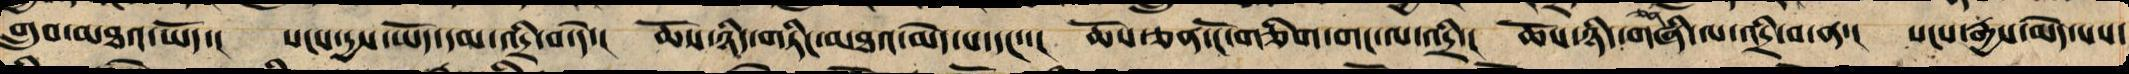གྲུབ་མཐའ་ཡོད་། སངས་དྱས་ཡོད་དམ་འདྲི་བ་་དེ། ཆོས་ཉིད་གཏིང་མཐའ་མེད་པ་དང་་། ཆོས་ཅན་ངོ་གཅིག་གང་ལ་འདྲི་། ཆོས་ཉིད་གཞི་ལ་འདྲི་བ་ན་། སངས་རྒྱས་མེད་པས་
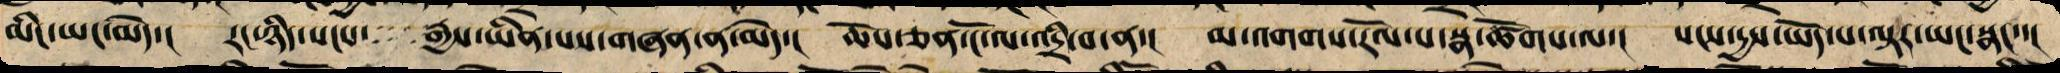མིང་ཡང་མེད་། རང་ཉིད་སངས་རྒྱས་ཡིན་པས་གཞན་ན་མེད་། ཆོས་ཅན་ངོ་ལ་འདྲི་བ་ན་། མ་འགགས་རོལ་པ་སྣ་ཚོགས་ལ་། སངས་དྱས་ཡོད་པ་ལྟར་ཡང་སྣང་་།
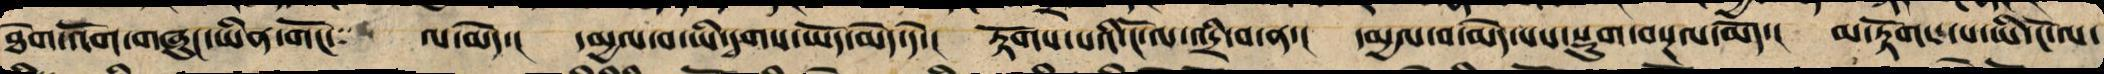ཐེག་འོག་གཞུང་ཡིན་གོང་ལ་མེད་། དམྱལ་བ་ཡི་དྭགས་ཡོད་མེད་དེ་། རྟོགས་པའི་ངོ་ལ་འདྲི་བ་ན་། དམྱལ་བ་མེད་པས་སྡུག་བསྔལ་མེད་། མ་རྟོགས་པ་ཡི་ངོ་ལ་
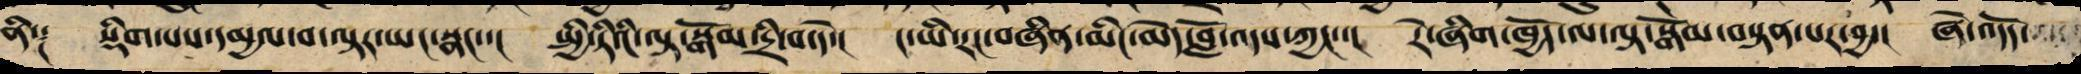ནི༑ སྡིག་པས་དམྱལ་བ་ལྟར་ཡང་སྣང་་། སྤྱི་ཏིའི་ལྟ་སྒོམ་དྲི་བ་དེ་། ང་ཡི་རང་བཞིན་མིང་མེད་བློ་འདས་ཀྱང་་། རེ་ཞིག་ཁྱོད་ལ་ལྟ་སྒོམ་བསྟན་པར་བྱ་། ཞེ་འདོད་
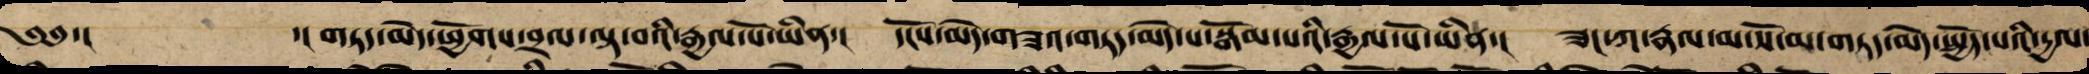༄༅་། ་།གཏད་མེད་ཕྱོགས་བྲལ་ལྟ་བའི་རྒྱལ་པོ་ཡིན་། དངོས་མེད་གཟའ་གཏད་མེད་པ་སྒོམ་པའི་རྒྱལ་པོ་ཡིན་། ཟང་ཀ་རྣལ་མ་སོ་མ་གཏད་མེད་སྤྱོད་པའི་དྱལ་
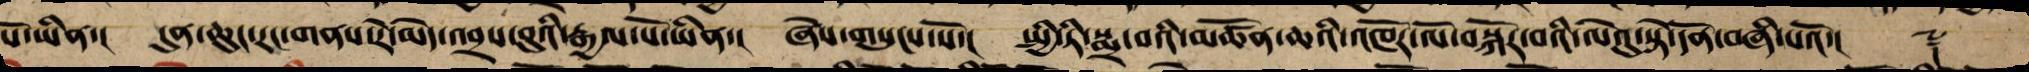པོ་ཡིན་། དུན་ཆུང་རང་གནས་རེ་མེད་འབྲས་བུའི་རྒྱལ་པོ་ཡིན་། ཞེས་གསུངས་སོ་། སྤྱི་ཏི་སྨྲ་བའི་མཚོན་ཆའི་འཁོར་ལོ་བསྐོར་བའི་ལེའུ་སྟེ་དོན་བཞི་པའོ་།། ༈
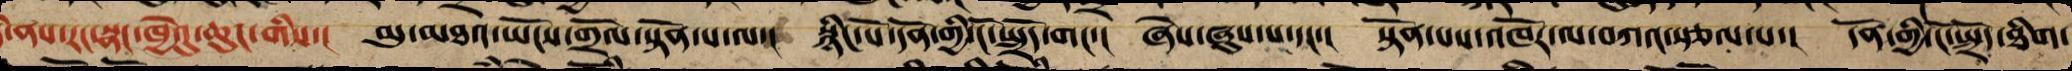དེ་ནས་རང་སྣང་ཁྱེའུ་ཆུང་གིས་། མུ་མཐའ་ཡོངས་གྲོལ་སྟོན་པ་ལ་། སྙིང་པོ་དོན་གྱི་ངོ་སྤྲོད་གང་། ཞེས་ཞུས་པ་དང་། སྟོན་པས་འཁོར་ལ་བཀའ་སྩལ་པ་། དོན་གྱི་ངོ་སྤྲོད་ཐིག་
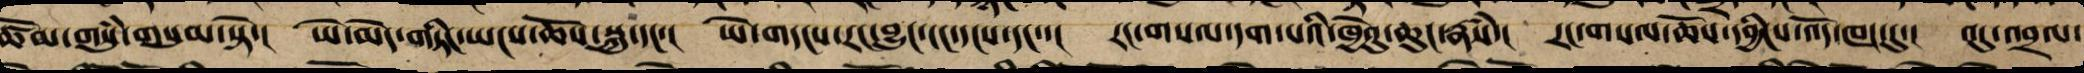ཚོམས་གསུཾ་གསུམ་སྟེ་། ཡེ་མེད་གཏིང་ཡངས་ཆོས་སྐུ་དང་། ཡེ་གདངས་རང་བྱུང་ངང་དངས་དང་་། རང་གསལ་དག་པའི་ཁྱེའུ་ཆུང་རྣཾས་། རང་གསལ་ཆོས་དབྱིངས་འོད་ཁང་དུ་། འདུ་འབྲལ་
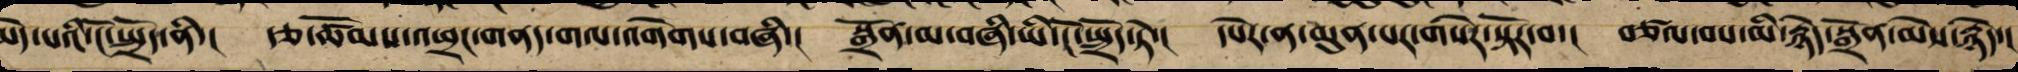མེད་པའི་ངོ་སྤྲོད་ནི་། རྩ་ཚོམས་འཕྲང་གནད་གལ་འགགས་བཞི་། སྒྲོན་མ་བཞི་ཡི་ངོ་སྤྲོད་ཏེ་། དཔེར་ན་མུན་པར་གསེར་སྟོར་བ་། བཙལ་བས་མི་རྙེད་སྒྲོན་མེས་རྙེད་།
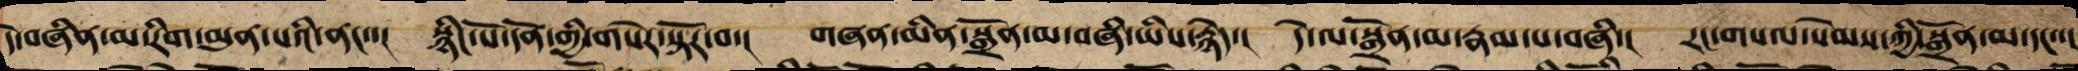དེ་བཞིན་མ་རིག་མུན་པའི་ནང་་། སྙིང་པོ་དོན་གྱི་གསེར་སྟོར་བ་། གཞན་མིན་སྒྲོན་མ་བཞི་ཡིས་རྙེད་། དེ་ལ་སྒྲོན་མ་རྣམ་པ་བཞི་། རང་གསལ་སེམས་ཀྱི་སྒྲོན་མ་དང་་།
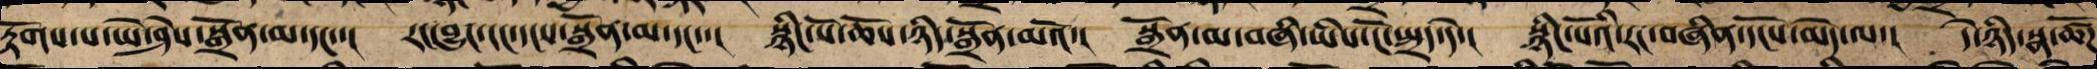རྟོགས་པ་ཡེ་ཤེས་སྒྲོན་མ་དང་་། རང་བྱུང་ངང་དངས་སྒྲོན་མ་དང་་། སྙིང་པོ་ཆོས་ཉིད་སྒྲོན་མའོ་། སྒྲོན་མ་བཞི་ཡིས་ངོ་སྤྲད་དེ་། སྙིང་པོའི་རང་བཞིན་དངོས་མེད་ལ་། དེ་ཉིད་སྣ་ཚོཌ་
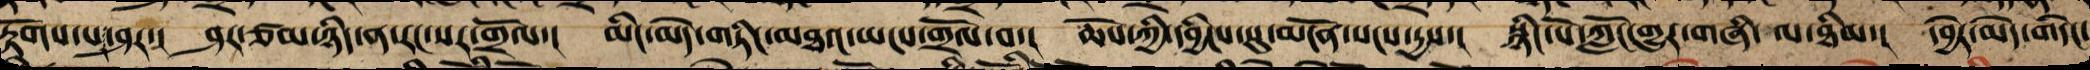རྟོགས་པར་ཤར་། ཤར་ཙམ་ཉིད་ན་རང་སར་གྲོལ་། མིང་མེད་གཏིང་མཐའ་ཡོངས་གྲོལ་བ་། ཆོས་ཀྱི་དབྱིངས་སུ་མངོན་སངས་དྱས་། སྙིང་པོ་ཀློང་གྱུར་གཞི་ལ་ཐིམ་། དབྱེར་མེད་གདེངས
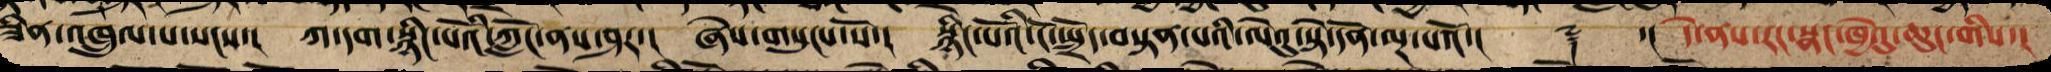ཟིན་འཁྲུལ་པ་སངས་། ཀ་དག་སྙིང་པོའི་ཀློང་ནས་ཤར་། ཞེས་གསུངས་སོ་། སྙིང་པོའི་ངོ་སྤྲོད་བསྟན་པའི་ལེའུ་སྟེ་དོན་ལྔ་པའོ་།། ༈ ་།། དེ་ནས་རང་སྣང་ཁྱེའུ་ཆུང་གིས་
